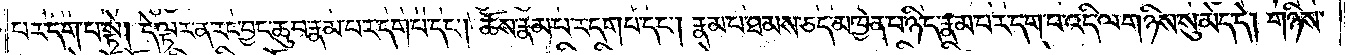པར་དག་པ་སྟེ། དེ་ལྟར་ན་རང་བྱང་ཆུབ་རྣམ་པར་དག་པ་དང༌། ཆོས་རྣམ་པར་དག་པ་དང༌། རྣམ་པ་ཐམས་ཅད་མཁྱེན་པ་ཉིད་རྣམ་པར་དག་པ་འདི་ལ་གཉིས་སུ་མེད་དེ། གཉིས་
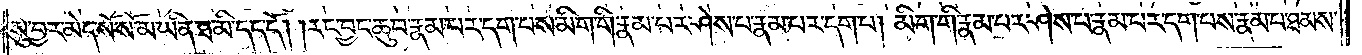སུ་བྱར་མེད་སོ་སོ་མ་ཡིན་ཐ་མི་དད་དོ། །རང་བྱང་ཆུབ་རྣམ་པར་དག་པས་མིག་གི་རྣམ་པར་ཤེས་པ་རྣམ་པར་དག་པ། མིག་གི་རྣམ་པར་ཤེས་པ་རྣམ་པར་དག་པས་རྣམ་པ་ཐམས་
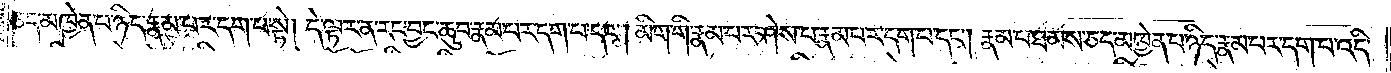ཅད་མཁྱེན་པ་ཉིད་རྣམ་པར་དག་པ་སྟེ། དེ་ལྟར་ན་རང་བྱང་ཆུ་རྣམ་པར་དག་པ་དང༌། མིག་གི་རྣམ་པར་ཤེས་པ་རྣམ་པར་དག་པ་དང༌། རྣམ་པ་ཐམས་ཅད་མཁྱེན་པ་ཉིད་རྣམ་པར་དག་པ་འདི་
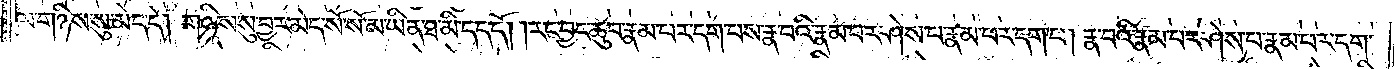ལ་གཉིས་སུ་མེད་དེ། གཉིས་སུ་བྱར་མེད་སོ་སོ་མ་ཡིན་ཐ་མི་དད་དོ། །རང་བྱང་ཆུབ་རྣམ་པར་དག་པས་རྣ་བའི་རྣམ་པར་ཤེས་པ་རྣམ་པར་དག་པ། རྣ་བའི་རྣམ་པ་ཤེས་པ་རྣམ་པར་དག་
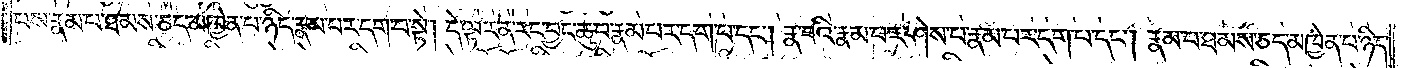པས་རྣམ་པ་ཐམས་ཅད་མཁྱེན་པ་ཉིད་རྣམ་པར་དག་པ་སྟེ། དེ་ལྟར་ན་རང་བྱང་ཆུབ་རྣམ་པར་དག་པ་དང༌། རྣ་བའི་རྣམ་པར་ཤེས་པ་རྣམ་པར་དག་པ་དང༌། རྣམ་པ་ཐམས་ཅད་མཁྱེན་པ་ཉིད་
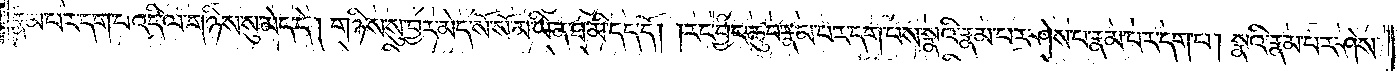རྣམ་པར་དག་པ་འདི་ལ་གཉིས་སུ་མེད་དེ། གཉིས་སུ་བྱར་མེད་སོ་སོ་མ་ཡིན་ཐ་མི་དད་དོ། །རང་བྱང་ཆུབ་རྣམ་པར་དག་པས་སྣའི་རྣམ་པར་ཤེས་པ་རྣམ་པར་དག་པ། སྣའི་རྣམ་པར་ཤེས་
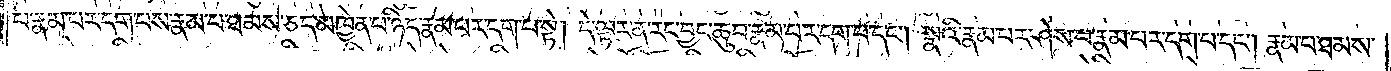པ་རྣམ་པར་དག་པས་རྣམ་པ་ཐམས་ཅད་མཁྱེན་པ་ཉིད་རྣམ་པར་དག་པ་སྟེ། དེ་ལྟར་ན་རང་བྱང་ཆུབ་རྣམ་པར་དག་པ་དང༌། སྣའི་རྣམ་པར་ཤེས་པ་རྣམ་པར་དག་པ་དང༌། རྣམ་པ་ཐམས་
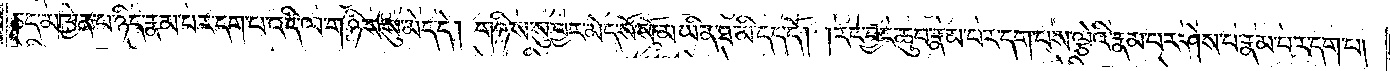ཅད་མཁྱེན་པ་ཉིད་རྣམ་པར་དག་པ་འདི་ལ་གཉིས་སུ་མེད་དེ། གཉིས་སུ་བྱར་མེད་སོ་སོ་མ་ཡིན་ཐ་མི་དད་དོ། །རང་བྱང་ཆུབ་རྣམ་པར་དག་པས་ལྕེའི་རྣམ་པར་ཤེས་པ་རྣམ་པར་དག་པ།
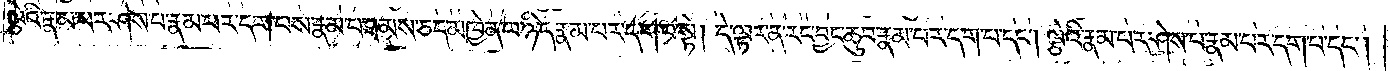ལྕེའི་རྣམ་པར་ཤེས་པ་རྣམ་པར་དག་པས་རྣམ་པ་ཐམས་ཅད་མཁྱེན་པ་ཉིད་རྣམ་པར་དག་པ་སྟེ། དེ་ལྟར་ན་རང་བྱང་ཆུབ་རྣམ་པར་དག་པ་དང༌། ལྕེའི་རྣམ་པར་ཤེས་པ་རྣམ་པར་དག་པ་དང༌།
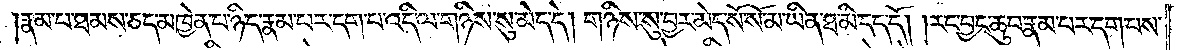རྣམ་པ་ཐམས་ཅད་མཁྱེན་པ་ཉིད་རྣམ་པར་དག་པ་འདི་ལ་གཉིས་སུ་མེད་དེ། གཉིས་སུ་བྱར་མེད་སོ་སོ་མ་ཡིན་ཐ་མི་དད་དོ། །རང་བྱང་ཆུབ་རྣམ་པར་དག་པས་
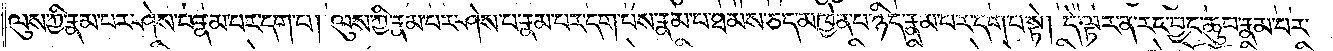ལུས་ཀྱི་རྣམ་པར་ཤེས་པ་རྣམ་པར་དག་པ། ལུས་ཀྱི་རྣམ་པར་ཤེས་པ་རྣམ་པར་དག་པས་རྣམ་པ་ཐམས་ཅད་མཁྱེན་པ་ཉིད་རྣམ་པར་དག་པ་སྟེ། དེ་ལྟར་ན་རང་བྱང་ཆུབ་རྣམ་པར་
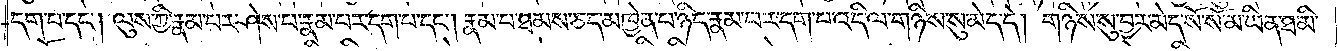དག་པ་དང༌། ལུས་ཀྱི་རྣམ་པར་ཤེས་པ་རྣམ་པར་དག་པ་དང༌། རྣམ་པ་ཐམས་ཅད་མཁྱེན་པ་ཉིད་རྣམ་པར་དག་པ་འདི་ལ་གཉིས་སུ་མེད་དེ། གཉིས་སུ་བྱར་མེད་སོ་སོ་མ་ཡིན་ཐ་མི་
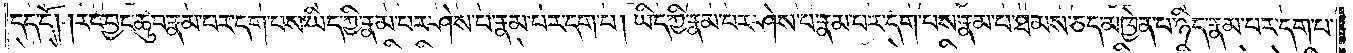དད་དོ། །རང་བྱང་ཆུབ་རྣམ་པར་དག་པས་ཡིད་ཀྱི་རྣམ་པར་ཤེས་པ་རྣམ་པར་དག་པ། ཡིད་ཀྱི་རྣམ་པར་ཤེས་པ་རྣམ་པར་དག་པས་རྣམ་པ་ཐམས་ཅད་མཁྱེན་པ་ཉིད་རྣམ་པར་དག་པ་
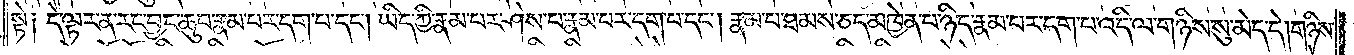སྟེ༑ དེ་ལྟར་ན་རང་བྱང་ཆུབ་རྣམ་པར་དག་པ་དང༌། ཡིད་ཀྱི་རྣམ་པར་ཤེས་པ་རྣམ་པར་དག་པ་དང༌། རྣམ་པ་ཐམས་ཅད་མཁྱེན་པ་ཉིད་རྣམ་པར་དག་པ་འདི་ལ་གཉིས་སུ་མེད་དེ། གཉིས་
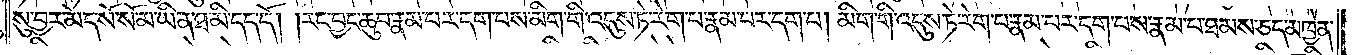སུ་བྱར་མེད་སོ་སོ་མ་ཡིན་ཐ་མི་དད་དོ། །རང་བྱང་ཆུབ་རྣམ་པར་དག་པས་མིག་གི་འདུས་ཏེ་རེག་པ་རྣམ་པར་དག་པ། མིག་གི་འདུས་ཏེ་རེག་པ་རྣམ་པར་དག་པས་རྣམ་པ་ཐམས་ཅད་མཁྱེན་
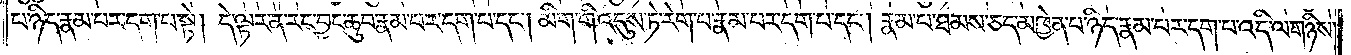པ་ཉིད་རྣམ་པར་དག་པ་སྟེ། དེ་ལྟར་ན་རང་བྱང་ཆུབ་རྣམ་པར་དག་པ་དང༌། མིག་གི་འདུས་ཏེ་རེག་པ་རྣམ་པར་དག་པ་དང༌། རྣམ་པ་ཐམས་ཅད་མཁྱེན་པ་ཉིད་རྣམ་པར་དག་པ་འདི་ལ་གཉིས་
